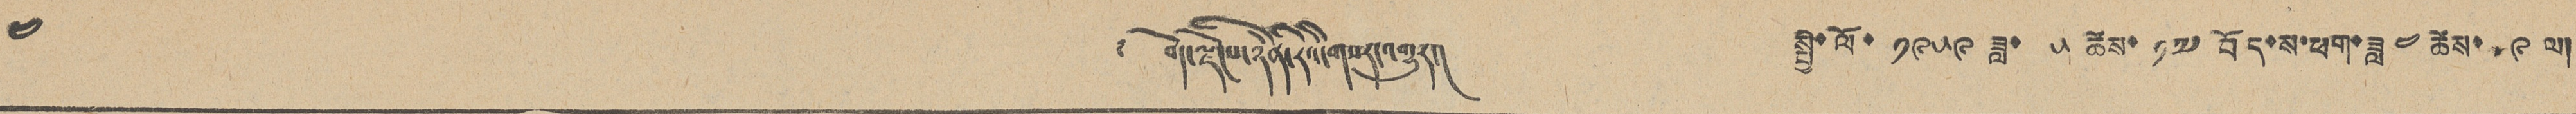༤ ༄ བོད་ལྗོངས་ཉིན་རེའི་གསར་འགྱུར། སྤྱི་ལོ་ ༡༩༥༩ ཟླ་ ༥ ཚེས་ ༡༧ བོད་ས་ཕག་ཟླ་ ༤ ཚེས་ ༩ ལ།
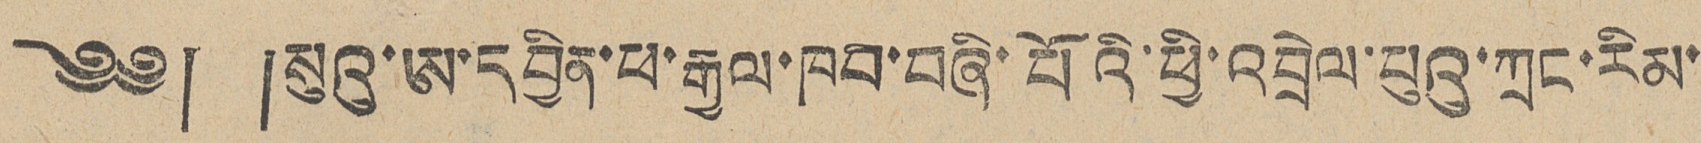༄༅། །སུའུ་ཨ་དབྱིན་ཕ་རྒྱལ་ཁབ་བཞི་པོའི་ཕྱི་འབྲེལ་པུའུ་ཀྲང་རིམ་
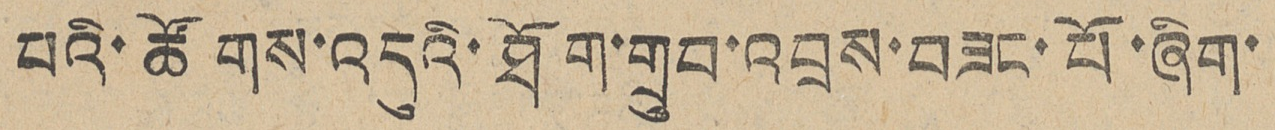པའི་ཚོགས་འདུའི་ཐོག་གྲུབ་འབྲས་བཟང་པོ་ཞིག་
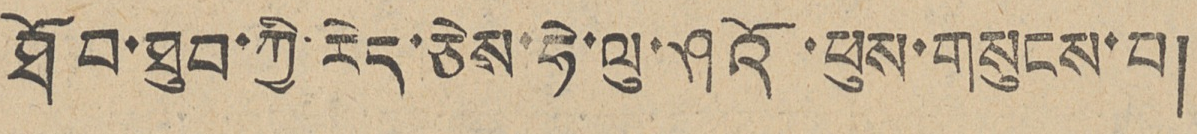ཐོབ་ཐུབ་ཀྱི་རེད་ཅེས་ཧེ་ལུ་ཤའོ་ཕུས་གསུངས་པ།
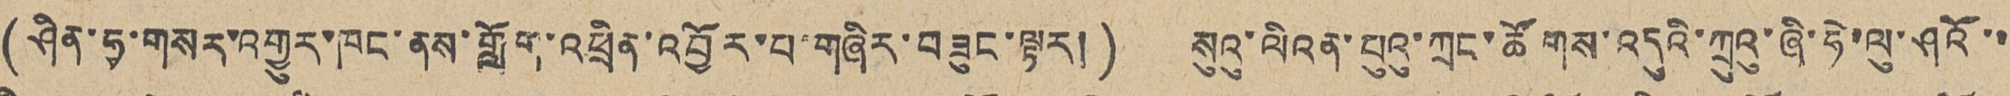(ཤིན་ཧྭ་གསར་འགྱུར་ཁང་ནས་གློག་འཕྲིན་འབྱོར་པ་གཞིར་བཟུང་ལྟར།) སུའུ་ལིའན་ཕུའུ་ཀྲང་ཚོགས་འདུའི་ཀྲུའུ་ཞི་ཧེ་ལུ་ཤའོ་་
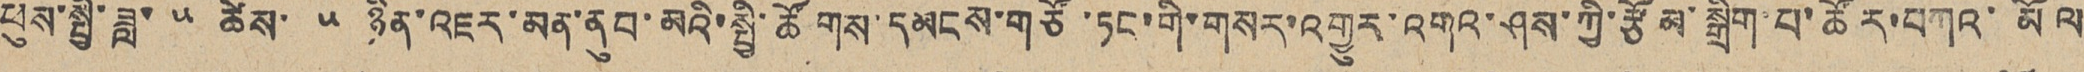ཕུས་སྤྱི་ཟླ་ ༥ ཚེས་ ༥ ཉིན་འཇར་མན་ནུབ་མའི་སྤྱི་ཚོགས་དམངས་གཙོ་ཏང་གི་གསར་འགྱུར་འགའ་ཤས་ཀྱི་རྩོམ་སྒྲིག་པ་ཚོར་བཀའ་མོལ
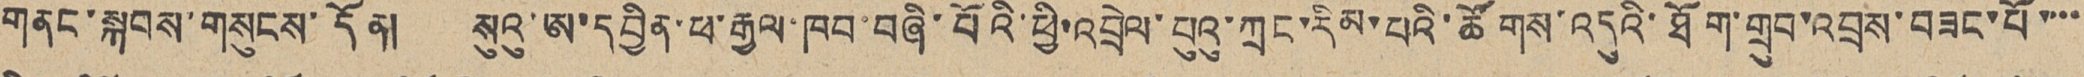གནང་སྐབས་གསུངས་དོན། སུའུ་ཨ་དབྱིན་ཕ་རྒྱལ་ཁབ་བཞི་པོའི་ཕྱི་འབྲེལ་པུའུ་ཀྲང་རིམ་པའི་ཚོགས་འདུའི་ཐོག་གྲུབ་འབྲས་བཟང་པོ་་་་
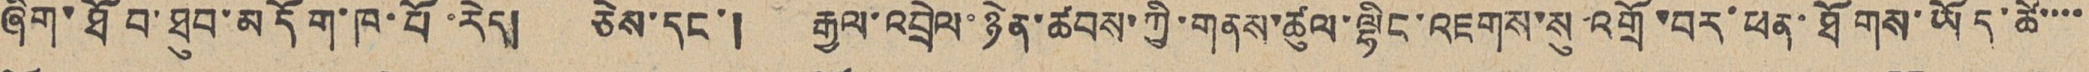ཞིག་ཐོབ་ཐུབ་མདོག་ཁ་པོ་རེད། ཅེས་དང་། རྒྱལ་འབྲེལ་ཉེན་ཚབས་ཀྱི་གནས་ཚལ་ལྷིང་འཇགས་སུ་འགྲོ་བར་ཕན་ཐོགས་ཡོད་ཚེ་་་་
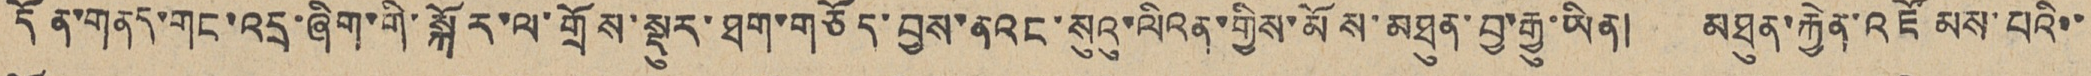དོན་གནད་གང་འདྲ་ཞིག་གི་སྐོར་ལ་གྲོས་སྡུར་ཐག་གཅོད་བྱས་ནའང་སུའུ་ལིའན་གྱིས་མོས་མཐུན་བྱ་རྒྱུ་ཡིན། མཐུན་རྐྱེན་འཛོམས་པའི་་
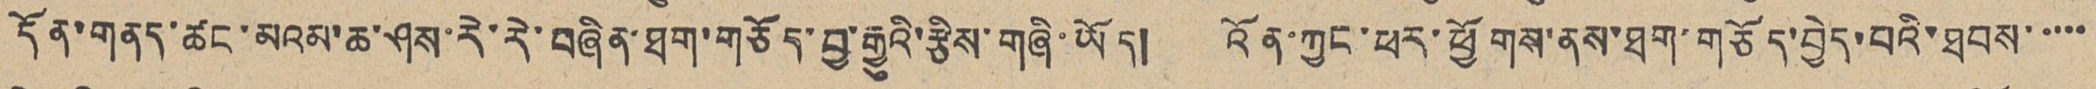དོན་གནད་ཚང་མའམ་ཆ་ཤས་རེ་རེ་བཞིན་ཐག་གཅོད་བྱ་རྒྱུའི་རྩིས་གཞི་ཡོད། འོན་ཀྱང་ཕར་ཕྱོགས་ནས་ཐག་གཅོད་བྱེད་པའི་ཐབས་་་་་
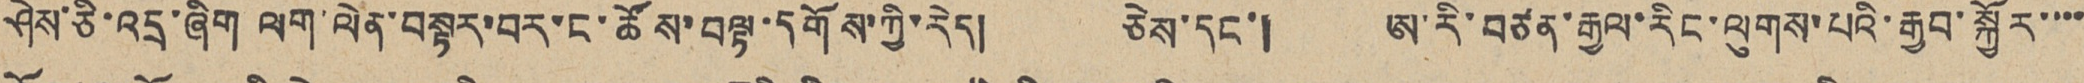ཤེས་ཅི་འདྲ་ཞིག ལག་ལེན་བསྟར་བར་ང་ཚོས་བལྟ་དགོས་ཀྱི་རེད། ཅེས་དང་། ཨ་རི་བཙན་རྒྱལ་རིང་ལུགས་པའི་རྒྱབ་སྐྱོར་་་་
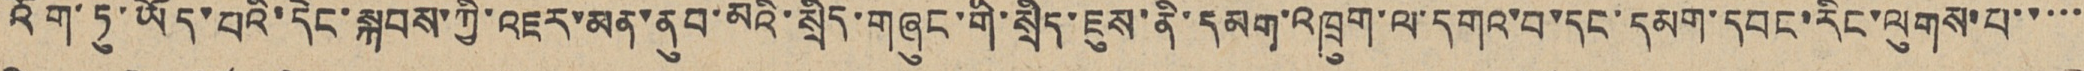འོག་ཏུ་ཡོད་པའི་དེང་སྐབས་ཀྱི་འཇར་མན་ནུབ་མའི་སྲིད་གཞུང་གི་སྲིད་ཇུས་ནི་དམག་འཁྲུག་ལ་དགའ་བ་དང་དམག་དབང་རིང་ལུགས་པ་་་་་
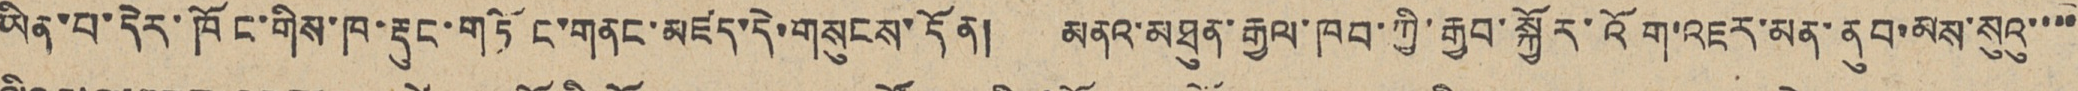ཡིན་པ་དེར་ཁོང་གིས་ཁ་རྡུང་གཏོང་གནང་མཛད་དེ་གསུངས་དོན། མནའ་མཐུན་རྒྱལ་ཁབ་ཀྱི་རྒྱབ་སྐྱོར་འོག་འཇར་མན་ནུབ་མས་སུའུ་་་་་
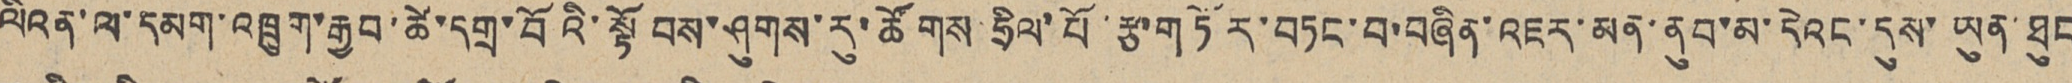ལིའན་ལ་དམག་འཁྲུག་རྒྱབ་ཚེ་དགྲ་བོའི་སྟོབས་ཤུགས་རུ་ཚོགས ཧྲིལ་པོ་རྩ་གཏོར་བཏང་བ་བཞིན་འཇར་མན་ནུབ་མ་དེའང་དུས་ཡུན་ཐུང
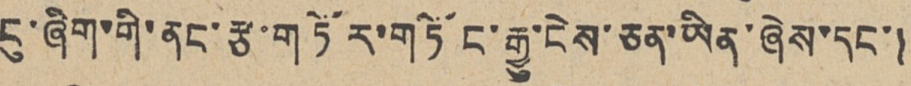ངུ་ཞིག་གི་ནང་རྩ་གཏོར་གཏོང་རྒྱུ་ངེས་ཅན་ཡིན་ཞེས་དང་།
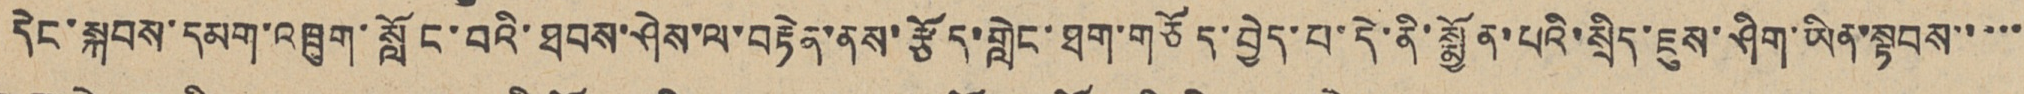དེང་སྐབས་དམག་འཁྲུག་སློང་བའི་ཐབས་ཤེས་ལ་བརྟེན་ནས་རྩོད་གླེང་ཐག་གཅོད་བྱེད་པ་དེ་ནི་སྨྱོན་པའི་སྲིད་ཇུས་ཤིག་ཡིན་སྟབས་་་་་
